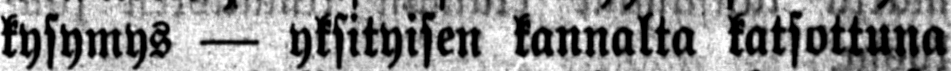kysymys — yksityisen kannalta katsottuna
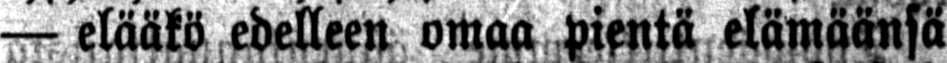— elääkö edelleen omaa pientä elämäänsä
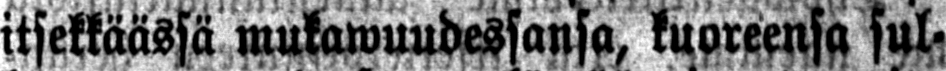itsekkäässä mukawuudessansa, kuoreensa sul-
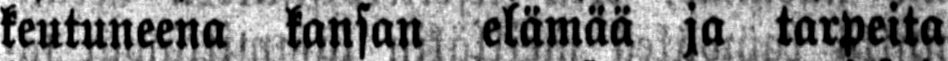keutuneena kansan elämää ja tarpeita
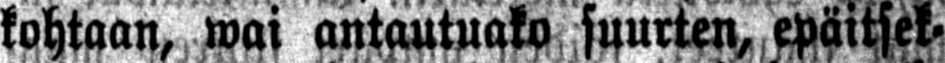kohtaan, wai antautuako suurten, epäitsek-
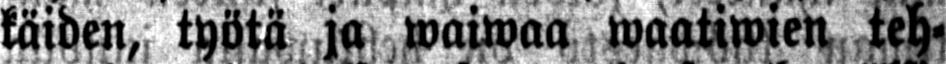käiden, työtä ja waiwaa waatiwien teh-
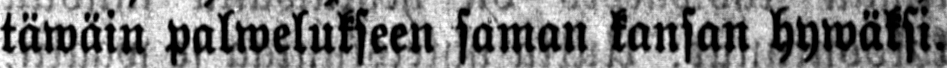täwäin palwelukseen saman kansan hywäksi.
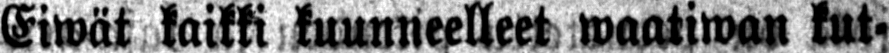Eiwät kaikki kuunneelleet waatiwan kut-
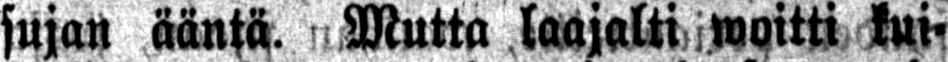sujan ääntä. Mutta laajalti woitti tui-
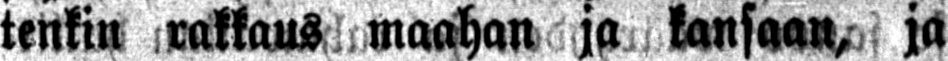tenkin rakkaus maahan ja kansaan, ja
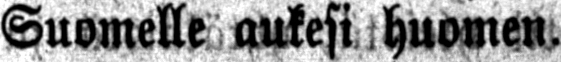Suomelle aukesi huomen.
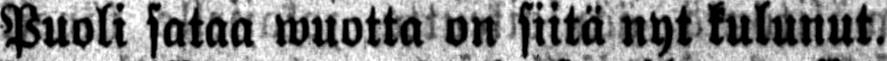Puoli sataa wuotta on siitä nyt kulunut.
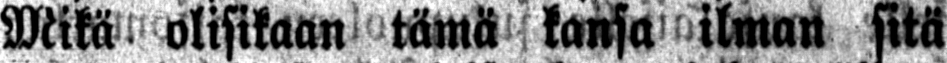Mikä olisikaan tämä kansa ilman sitä
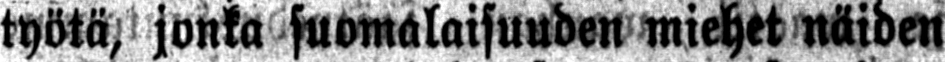työtä, jonka suomalaisuuden miehet näiden
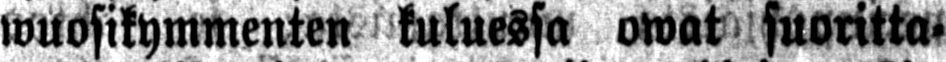wuosikymmenten kuluessa owat suoritta-
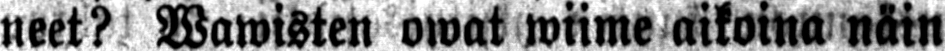neet? Wawisten owat wiime aikoina näin
